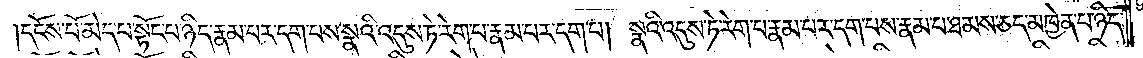དངོས་པོ་མེད་པ་སྟོང་པ་ཉིད་རྣམ་པར་དག་པས་སྣའི་འདུས་ཏེ་རེག་པ་རྣམ་པར་དག་པ། སྣའི་འདུས་ཏེ་རེག་པ་རྣམ་པར་དག་པས་རྣམ་པ་ཐམས་ཅད་མཁྱེན་པ་ཉིད་
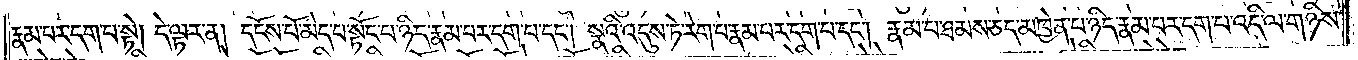རྣམ་པར་དག་པ་སྟེ། དེ་ལྟར་ན། དངོས་པོ་མེད་པ་སྟོང་པ་ཉིད་རྣམ་པར་དག་པ་དང༌། སྣའི་འདུས་ཏེ་རེག་པ་རྣམ་པར་དག་པ་དང༌། རྣམ་པ་ཐམས་ཅད་མཁྱེན་པ་ཉིད་རྣམ་པར་དག་པ་འདི་ལ་གཉིས་
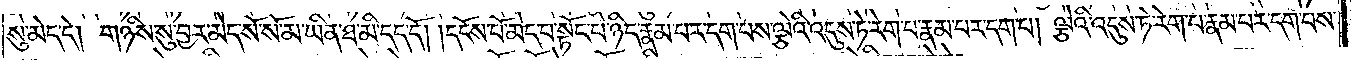སུ་མེད་དེ། གཉིས་སུ་བྱར་མེད་སོ་སོ་མ་ཡིན་ཐ་མི་དད་དོ། །དངོས་པོ་མེད་པ་སྟོང་པ་ཉིད་རྣམ་པར་དག་པས་ལྕེའི་འདུས་ཏེ་རེག་པ་རྣམ་པར་དག་པ། ལྕེའི་འདུས་ཏེ་རེག་པ་རྣམ་པར་དག་པས་
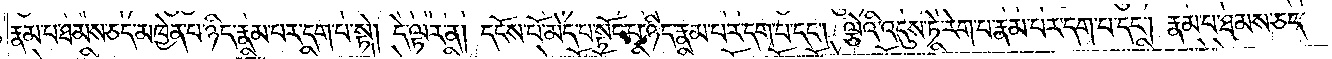རྣམ་པ་ཐམས་ཅད་མཁྱེན་པ་ཉིད་རྣམ་པར་དག་པ་སྟེ། དེ་ལྟར་ན། དངོས་པོ་མེད་པ་སྟོང་པ་ཉིད་རྣམ་པར་དག་པ་དང༌། ལྕེའི་འདུས་ཏེ་རེག་པ་རྣམ་པར་དག་པ་དང༌། རྣམ་པ་ཐམས་ཅད་
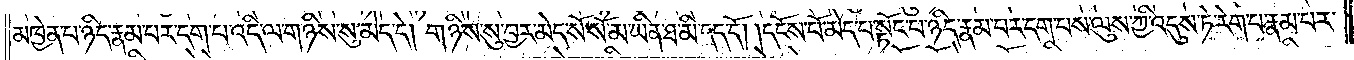མཁྱེན་པ་ཉིད་རྣམ་པར་དག་པ་འདི་ལ་གཉིས་སུ་མེད་དེ། གཉིས་སུ་བྱར་མེད་སོ་སོ་མ་ཡིན་ཐ་མི་དད་དོ། །དངོས་པོ་མེད་པ་སྟོང་པ་ཉིད་རྣམ་པར་དག་པས་ལུས་ཀྱི་འདུས་ཏེ་རེག་པ་རྣམ་པར་
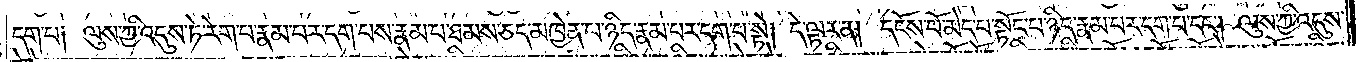དག་པ༑ ལུས་ཀྱི་འདུས་ཏེ་རེག་པ་རྣམ་པར་དག་པས་རྣམ་པ་ཐམས་ཅད་མཁྱེན་པ་ཉིད་རྣམ་པར་དག་པ་སྟེ། དེ་ལྟར་ན། དངོས་པོ་མེད་པ་སྟོང་པ་ཉིད་རྣམ་པར་དག་པ་དང༌། ལུས་ཀྱི་འདུས་
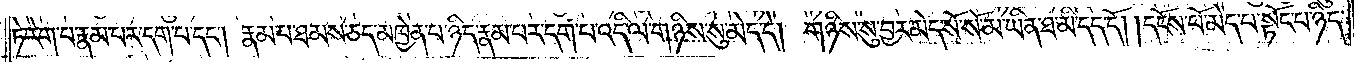ཏེ་རེག་པ་རྣམ་པར་དག་པ་དང༌། རྣམ་པ་ཐམས་ཅད་མཁྱེན་པ་ཉིད་རྣམ་པར་དག་པ་འདི་ལ་གཉིས་སུ་མེད་དེ། གཉིས་སུ་བྱར་མེད་སོ་སོ་མ་ཡིན་ཐ་མི་དད་དོ། །དངོས་པོ་མེད་པ་སྟོང་པ་ཉིད་
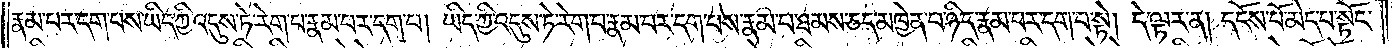རྣམ་པར་དག་པས་ཡིད་ཀྱི་འདུས་ཏེ་རེག་པ་རྣམ་པར་དག་པ། ཡིད་ཀྱི་འདུས་ཏེ་རེག་པ་རྣམ་པར་དག་པས་རྣམ་པ་ཐམས་ཅད་མཁྱེན་པ་ཉིད་རྣམ་པར་དག་པ་སྟེ། དེ་ལྟར་ན། དངོས་པོ་མེད་པ་སྟོང་
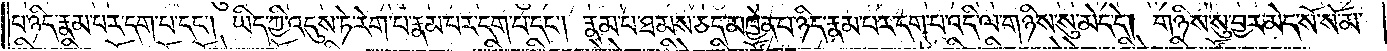པ་ཉིད་རྣམ་པར་དག་པ་དང༌། ཡིད་ཀྱི་འདུས་ཏེ་རེག་པ་རྣམ་པར་དག་པ་དང༌། རྣམ་པ་ཐམས་ཅད་མཁྱེན་པ་ཉིད་རྣམ་པར་དག་པ་འདི་ལ་གཉིས་སུ་མེད་དེ། གཉིས་སུ་བྱར་མེད་སོ་སོ་མ་
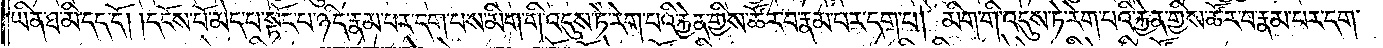ཡིན་ཐ་མི་དད་དོ། །དངོས་པོ་མེད་པ་སྟོང་པ་ཉིད་རྣམ་པར་དག་པས་མིག་གི་འདུས་ཏེ་རེག་པའི་རྐྱེན་གྱིས་ཚོར་བ་རྣམ་པར་དག་པ། མིག་གི་འདུས་ཏེ་རེག་པའི་རྐྱེན་གྱིས་ཚོར་བ་རྣམ་པར་དག་
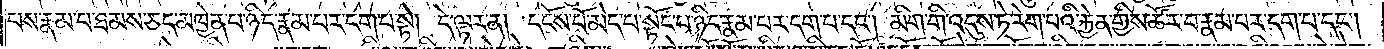པས་རྣམ་པ་ཐམས་ཅད་མཁྱེན་པ་ཉིད་རྣམ་པར་དག་པ་སྟེ། དེ་ལྟར་ན། དངོས་པོ་མེད་པ་སྟོང་པ་ཉིད་རྣམ་པར་དག་པ་དང༌། མིག་གི་འདུས་ཏེ་རེག་པའི་རྐྱེན་གྱིས་ཚོར་བ་རྣམ་པར་དག་པ་དང༌།
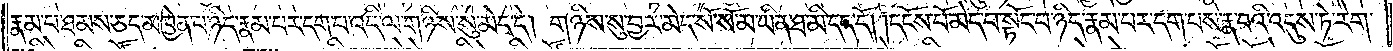རྣམ་པ་ཐམས་ཅད་མཁྱེན་པ་ཉིད་རྣམ་པར་དག་པ་འདི་ལ་གཉིས་སུ་མེད་དེ། གཉིས་སུ་བྱར་མེད་སོ་སོ་མ་ཡིན་ཐ་མི་དད་དོ། །དངོས་པོ་མེད་པ་སྟོང་པ་ཉིད་རྣམ་པར་དག་པས་རྣ་བའི་འདུས་ཏེ་རེག་
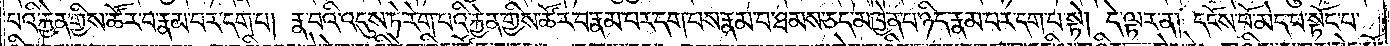པའི་རྐྱེན་གྱིས་ཚོར་བ་རྣམ་པར་དག་པ། རྣ་བའི་འདུས་ཏེ་རེག་པའི་རྐྱེན་གྱིས་ཚོར་བ་རྣམ་པར་དག་པས་རྣམ་པ་ཐམས་ཅད་མཁྱེན་པ་ཉིད་རྣམ་པར་དག་པ་སྟེ། དེ་ལྟར་ན། དངོས་པོ་མེད་པ་སྟོང་པ་
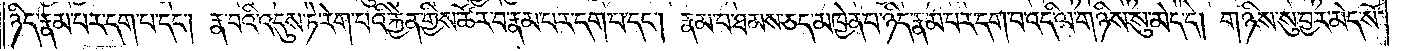ཉིད་རྣམ་པར་དག་པ་དང༌། རྣ་བའི་འདུས་ཏེ་རེག་པའི་རྐྱེན་གྱིས་ཚོར་བ་རྣམ་པར་དག་པ་དང༌། རྣམ་པ་ཐམས་ཅད་མཁྱེན་པ་ཉིད་རྣམ་པར་དག་པ་འདི་ལ་གཉིས་སུ་མེད་དེ། གཉིས་སུ་བྱར་མེད་སོ་
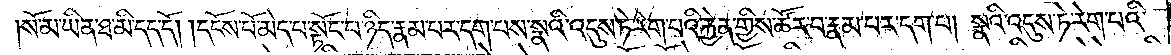སོ་མ་ཡིན་ཐ་མི་དད་དོ། །དངོས་པོ་མེད་པ་སྟོང་པ་ཉིད་རྣམ་པར་དག་པས་སྣའི་འདུས་ཏེ་རེག་པའི་རྐྱེན་གྱིས་ཚོར་བ་རྣམ་པར་དག་པ། སྣའི་འདུས་ཏེ་རེག་པའི་
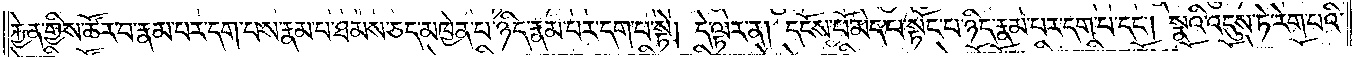རྐྱེན་གྱིས་ཚོར་བ་རྣམ་པར་དག་པས་རྣམ་པ་ཐམས་ཅད་མཁྱེན་པ་ཉིད་རྣམ་པར་དག་པ་སྟེ། དེ་ལྟར་ན། དངོས་པོ་མེད་པ་སྟོང་པ་ཉིད་རྣམ་པར་དག་པ་དང༌། སྣའི་འདུས་ཏེ་རེག་པའི་
